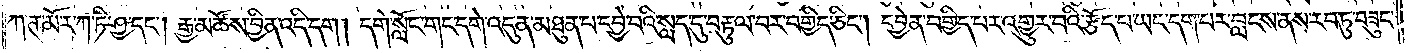ཀ་ཊ་མོ་ར་ཀ་ཏི་ཤྱ་དང༌། རྒྱ་མཚོས་བྱིན་འདི་དག །དགེ་སློང་གང་དགེ་འདུན་མཐུན་པ་དབྱེ་བའི་སླད་དུ་བརྟུལ་བར་བགྱིད་ཅིང༌། དབྱེན་བགྱིད་པར་འགྱུར་བའི་རྩོད་པ་ཡང་དག་པར་བླངས་ནས་རབ་ཏུ་བཟུང་
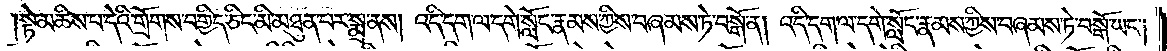སྟེ་མཆིས་པ་དེའི་གྲོགས་བགྱིད་ཅིང་མི་མཐུན་པར་སྨྲ་ནས། འདི་དག་ལ་དགེ་སློང་རྣམས་ཀྱིས་བཞམས་ཏེ་བསྒོ་ན། འདི་དག་ལ་དགེ་སློང་རྣམས་ཀྱིས་བཞམས་ཏེ་བསྒོ་ཡང༌།
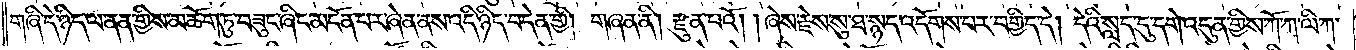གཞི་དེ་ཉིད་ལ་ནན་གྱིས་མཆོག་ཏུ་བཟུང་ཞིང་མངོན་པར་ཞེན་ནས་འདི་ཉིད་བདེན་གྱི། གཞན་ནི། རྫུན་པའོ། །ཞེས་རྗེས་སུ་ཐ་སྙད་འདོགས་པར་བགྱིད་དེ། དེའི་སླད་དུ་དགེ་འདུན་གྱིས་ཀོ་ཀ་ལི་ཀ་
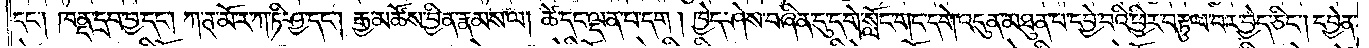དང༌། ཁནྡ་དྲབ་བྱ་དང༌། ཀ་ཊ་མོ་ར་ཀ་ཏི་ཤྱ་དང༌། རྒྱ་མཚོས་བྱིན་རྣམས་ལ། ཚེ་དང་ལྡན་པ་དག །ཁྱེད་ཤེས་བཞིན་དུ་དགེ་སློང་གང་དགེ་འདུན་མཐུན་པ་དབྱེ་བའི་ཕྱིར་བརྟུལ་བར་བྱེད་ཅིང༌། དབྱེན་
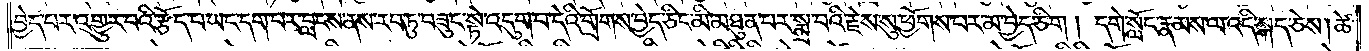བྱེད་པར་འགྱུར་བའི་རྩོད་པ་ཡང་དག་པར་བླངས་ནས་རབ་ཏུ་བཟུང་སྟེ་འདུག་པ་དེའི་གྲོགས་བྱེད་ཅིང་མི་མཐུན་པར་སྨྲ་བའི་རྗེས་སུ་ཕྱོགས་པར་མ་བྱེད་ཅིག ། དགེ་སློང་རྣམས་ལ་འདི་སྐད་ཅེས།ཚེ་
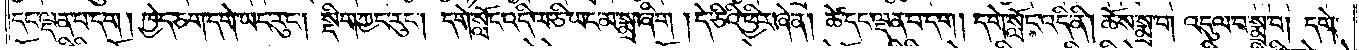དང་ལྡན་པ་དག །ཁྱེད་ཅག་དགེ་ཡང་རུང༌། སྡིག་ཀྱང་རུང༌། དགེ་སློང་འདི་ལ་ཅི་ཡང་མ་སྨྲ་ཞིག །དེ་ཅིའི་ཕྱིར་ཞེ་ན། ཚེ་དང་ལྡན་པ་དག །དགེ་སློང་འདི་ནི། ཆོས་སྨྲ་བ། འདུལ་བ་སྨྲ་བ། དགེ་
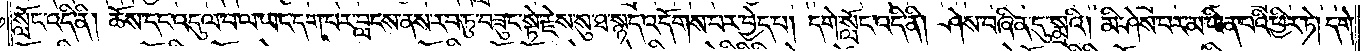སློང་འདི་ནི། ཆོས་དང་འདུལ་བ་ལ་ཡང་དག་པར་བླངས་ནས་རབ་ཏུ་བཟུང་སྟེ་རྗེས་སུ་ཐ་སྙད་འདོགས་པར་བྱེད་པ། དགེ་སློང་འདི་ནི། ཤེས་བཞིན་དུ་སྨྲའི། མི་ཤེས་པར་མ་ཡིན་པའི་ཕྱིར་ཏེ། དགེ་
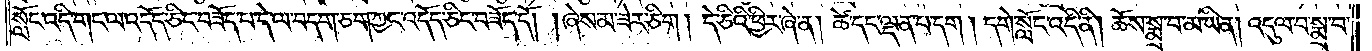སློང་འདི་གང་ལ་འདོད་ཅིང་བཟོད་པ་དེ་ལ་བདག་ཅག་ཀྱང་འདོད་ཅིང་བཟོད་དོ། །ཞེས་མ་ཟེར་ཅིག །དེ་ཅིའི་ཕྱིར་ཞེ་ན། ཚེ་དང་ལྡན་པ་དག །དགེ་སློང་འདི་ནི། ཆོས་སྨྲ་བ་མ་ཡིན། འདུལ་བ་སྨྲ་བ་
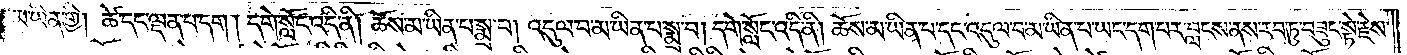མ་ཡིན་གྱི། ཚེ་དང་ལྡན་པ་དག། དགེ་སློང་འདི་ནི། ཆོས་མ་ཡིན་པ་སྨྲ་བ། འདུལ་བ་མ་ཡིན་པ་སྨྲ་བ། དགེ་སློང་འདི་ནི། ཆོས་མ་ཡིན་པ་དང་འདུལ་བ་མ་ཡིན་པ་ཡང་དག་པར་བླངས་ནས་རབ་ཏུ་བཟུང་སྟེ་རྗེས་
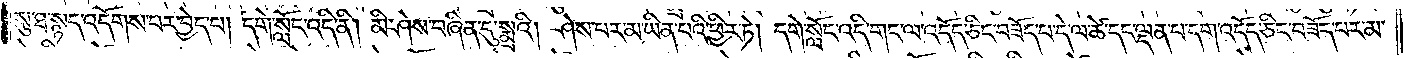སུ་ཐ་སྙད་འདོགས་པར་བྱེད་པ། དགེ་སློང་འདི་ནི། མི་ཤེས་བཞིན་དུ་སྨྲའི། ཤེས་པར་མ་ཡིན་པའི་ཕྱིར་ཏེ། དགེ་སློང་འདི་གང་ལ་འདོད་ཅིང་བཟོད་པ་དེ་ལ་ཚེ་དང་ལྡན་པ་དག་འདོད་ཅིང་བཟོད་པར་མ་
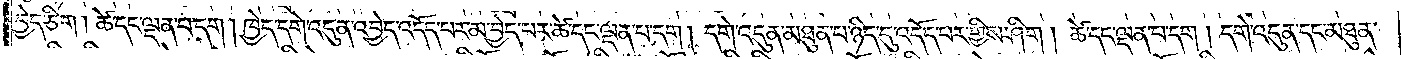བྱེད་ཅིག །ཚེ་དང་ལྡན་པ་དག །ཁྱེད་དགེ་འདུན་འབྱེད་འདོད་པར་མ་བྱེད་པར་ཚེ་དང་ལྡན་པ་དག །དགེ་འདུན་མཐུན་པ་ཉིད་དུ་འདོད་པར་གྱིས་ཤིག །ཚེ་དང་ལྡན་པ་དག །དགེ་འདུན་དང་མཐུན་
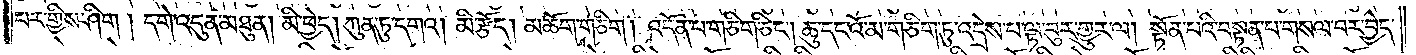པར་གྱིས་ཤིག །དགེ་འདུན་མཐུན། མི་ཕྱེད། ཀུན་ཏུ་དགའ། མི་རྩོད། མཆོག་གཅིག །འདོན་པ་གཅིག་ཅིང༌། ཆུ་དང་འོ་མ་གཅིག་ཏུ་འདྲེས་པ་ལྟ་བུར་གྱུར་ལ། སྟོན་པའི་བསྟན་པ་གསལ་བར་བྱེད་
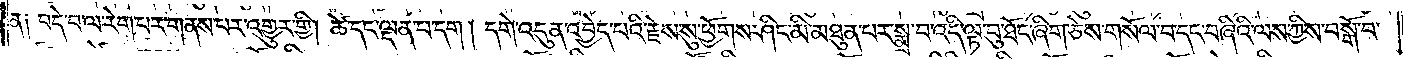ན༏ བདེ་བ་ལ་རེག་པར་གནས་པར་འགྱུར་གྱི། ཚེ་དང་ལྡན་པ་དག །དགེ་འདུན་འབྱེད་པའི་རྗེས་སུ་ཕྱོགས་ཤིང་མི་མཐུན་པར་སྨྲ་བ་འདི་ལྟ་བུ་ཐོང་ཞིག་ཅེས་གསོལ་བ་དང་བཞིའི་ལས་ཀྱིས་བསྒོ་བ་
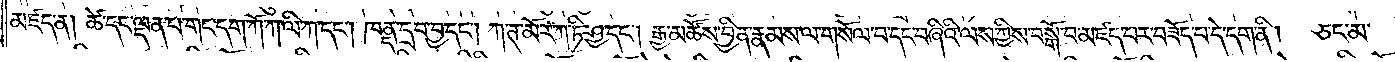མཛད་ན། ཚེ་དང་ལྡན་པ་གང་དག་ཀོ་ཀ་ལི་ཀ་དང༌། ཁནྡ་དྲབ་བྱ་དང༌། ཀ་ཊ་མོ་ར་ཀ་ཏི་ཤྱ་དང༌། རྒྱ་མཚོས་བྱིན་རྣམས་ལ་གསོལ་བ་དང་བཞིའི་ལས་ཀྱིས་བསྒོ་བ་མཛད་པར་བཟོད་པ་དེ་དག་ནི།  ཅང་མ་
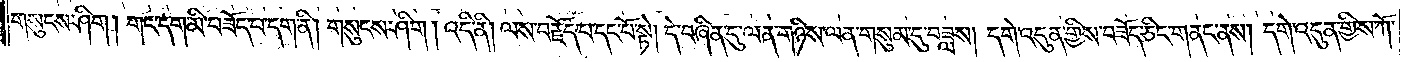གསུངས་ཤིག །གང་དག་མི་བཟོད་པ་དག་ནི། གསུངས་ཤིག །འདི་ནི། ལས་བརྗོད་པ་དང་པོ་སྟེ། དེ་བཞིན་དུ་ལན་གཉིས་ལན་གསུམ་དུ་བཟླས། དགེ་འདུན་གྱིས་བཟོད་ཅིང་གནང་ནས། དགེ་འདུན་གྱིས་ཀོ་
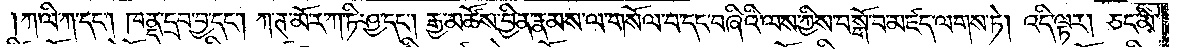ཀ་ལི་ཀ་དང༌། ཁནྡ་དྲབ་བྱ་དང༌། ཀ་ཊ་མོ་ར་ཀ་ཏི་ཤྱ་དང༌། རྒྱ་མཚོས་བྱིན་རྣམས་ལ་གསོལ་བ་དང་བཞིའི་ལས་ཀྱིས་བསྒོ་བ་མཛད་ལགས་ཏེ། འདི་ལྟར། ཅང་མི་
